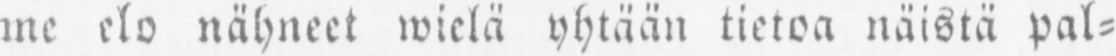me elo nähneet wielä yhtään tietoa näistä pal-
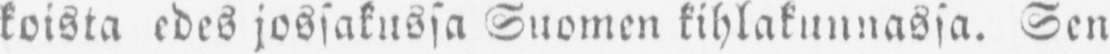koista edes jossakussa Suomen kihlakunnassa. Sen
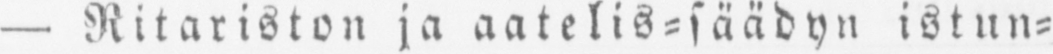— Ritariston ja aatelis-säädyn istun-
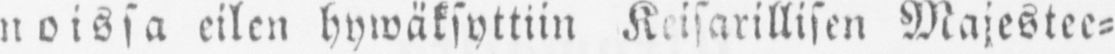noissa eilen hywäksyttiin Keisarillisen Majestee-
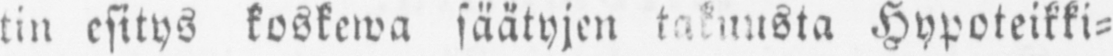tin esitys koskewa säätyjen takuusta Hypoteikki-
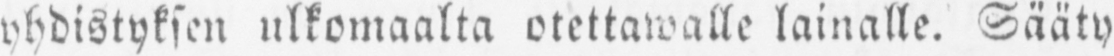yhdistyksen ulkomaalta otettawalle lainalle. Sääty
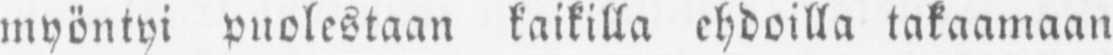myöntyi puolestaan kaikilla ehdoilla takaamaan
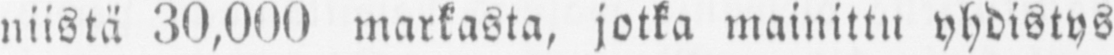niistä 30,000 markasta, jotka mainittu yhdistys
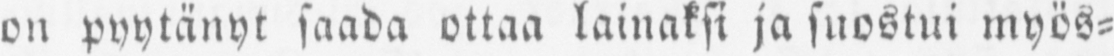on pyytänyt saada ottaa lainaksi ja suostui myös-
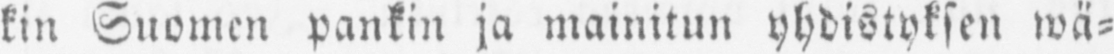kin Suomen pankin ja mainitun yhdistyksen wä-
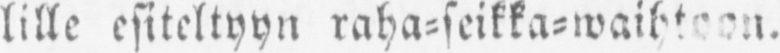lille esiteltyyn raha-seikka-waihtoon.
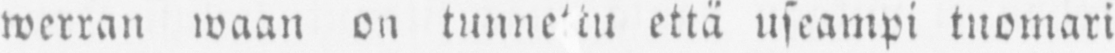werran waan on tunnettu että useampi tuomari
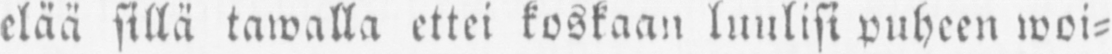elää sillä tawalla ettei koskaan luulisi puheen woi-
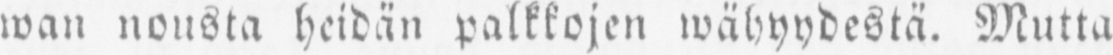wan nousta heidän palkkojen wähyydestä. Mutta
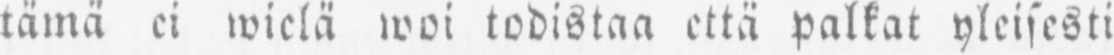tämä ei wielä woi todistaa että palkat yleisesti
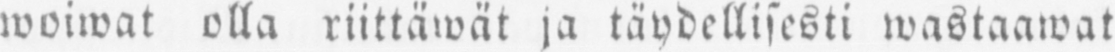woiwat olla riittäwät ja täydellisesti wastaawat
